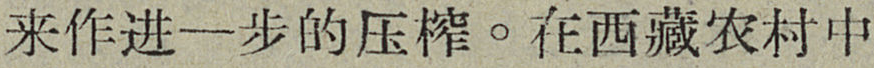来作进一步地压榨。在西藏农村中
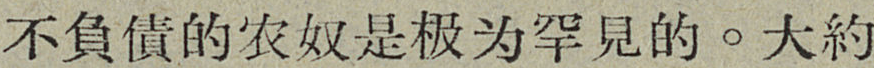不負債的农奴是极为罕見的。大約
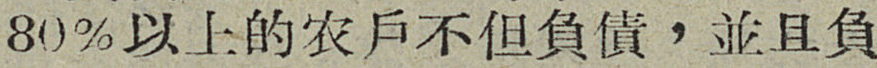80％以上的农户不但負債，並且負
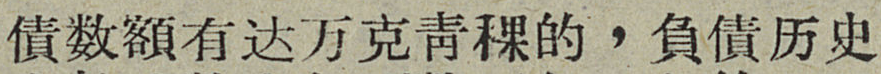債数額有达万克靑稞的，負債历史
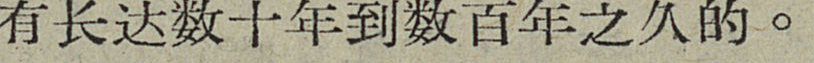有长达数十年到数百年之久的。
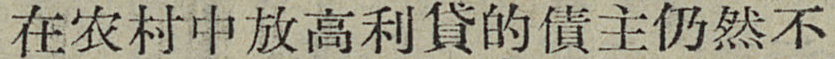在农村中放高利貸的債主仍然不
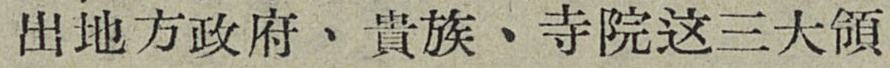出地方政府、貴族、寺院这三大領
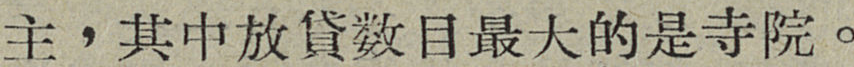主，其中放貸数目最大的是寺院。
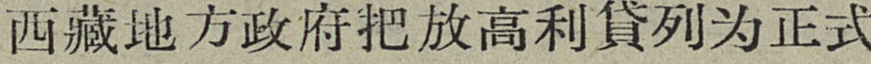西藏地方政府把放高利貸列为正式
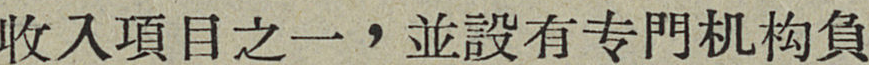收入項目之一，並設有專門机构負
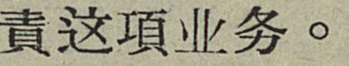責这項业务。
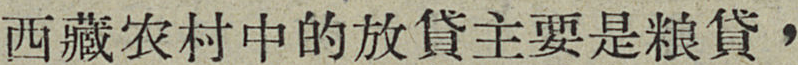西藏农村中的放貸主要是粮貸，
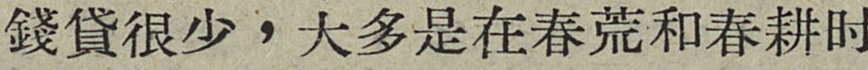錢貸很少，大多是在春荒和春耕时
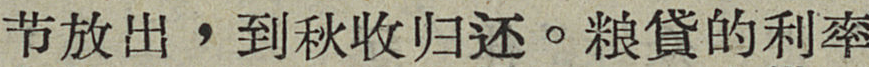节放出，到秋收归还。粮貸的利率
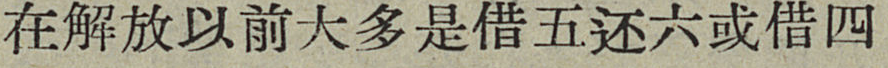在解放以前大多是借五还六或借四
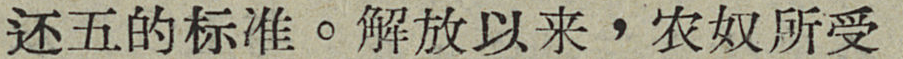还五的标准。解放以来，农奴所受
